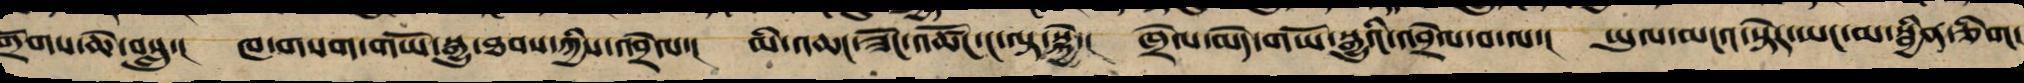གྲོགས་ཆེ་བསླུ་། ཁ་གསག་གཡོ་སྒྱུ་ཐབས་ཀྱིས་འབྲེལ་། མི་འཆང་ཟོང་འཚོང་ང་ལྟ་སྐྱེ་། ཁྲེལ་མེད་གཡོ་སྒྱུའི་འབྲེལ་བ་ལ་། ཡུལ་མངའ་སྟེར་ཡང་མ་སྦྱིན་ཅིག།
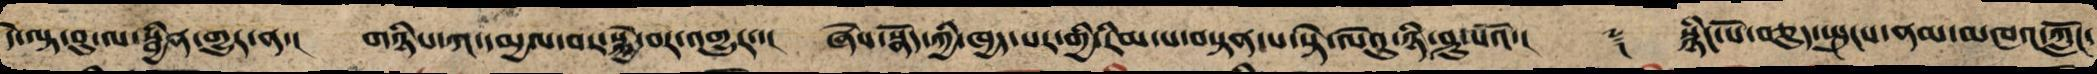དེ་ལྟ་བུ་ལ་བྱིན་གྱུར་ན་། གཉིས་ཀ་དམྱལ་བར་སྐྱེ་བར་འགྱུར་། ཞེས་སྣོད་ཀྱི་ཁྱད་པར་གྱི་རིམ་པ་བསྟན་པ་སྟེ་ལེའུ་ཉི་ཤུ་པའོ་།། ༈ སྙིང་པོ་བཅུད་སྤུངས་ནམ་མཁའ་ཀློང་
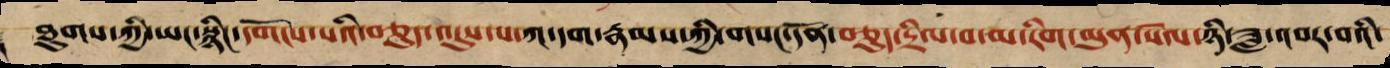ཐུགས་ཀྱི་ཡང་སྙིང་དགོངས་པའི་བཅུད་འདུས་པ་ཀ་དག་རྣམས་ཀྱི་གསང་དོན་བཅུད་དྲིལ་བ་མ་རིག་མུན་སེལ་ཉི་ཟླ་འབར་བའི་
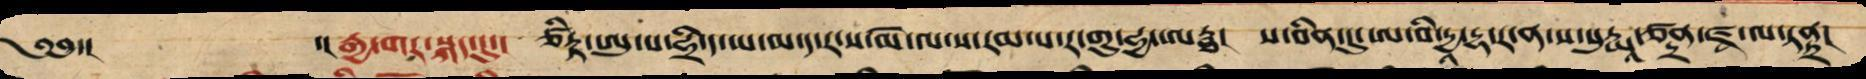༄༅་། ་།རྒྱ་གར་སྐད་དུ་། ཙིཏྟ་ཨུ་པ་ཧྲྀ་ད་ཡ་མ་ད་ར་ས་མེ་ལ་ས་རམ་པ་ར་་གུ་ཧྱ་ཨརྠ། ས་བིན་དུ་ཨ་བི་དྱཱ་དྷ་ར་ན་ས་སུརྱཱ་ཙནྡྲ་ཛྭ་ལ་ཏནྟྲ།
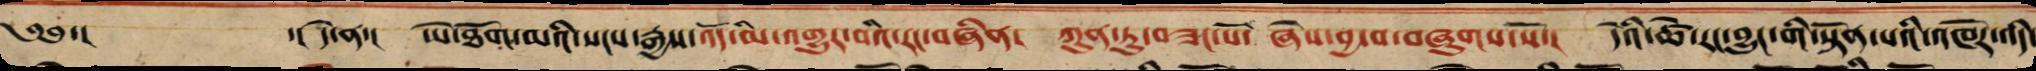༄༅་།   ་། དེ་ན་། ཡེ་ཐོག་མའི་སངས་རྒྱས་འོད་མི་འགྱུར་བའི་རང་བཞིན། ཀུན་ཏུ་བཟང་པོ་ཞེས་བྱ་བ་བཞུགས་སོ་། དེའི་ཚེ་རང་བྱུང་གི་སྟོན་པའི་འཁོར་འདི་
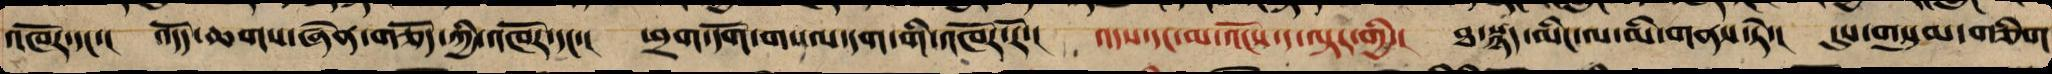འཁོར་དང་། འདོད་ཆགས་ཞེན་གཅོད་ཀྱི་འཁོར་དང་། ཕྲག་དོག་གསལ་དག་གི་འཁོར་རོ་། འདས་དང་མ་འོངས་ད་ལྟར་གྱིས་། ཐ་སྙད་མིང་ལ་མི་གནས་ཏེ་། དུས་གསུམ་གཅིག
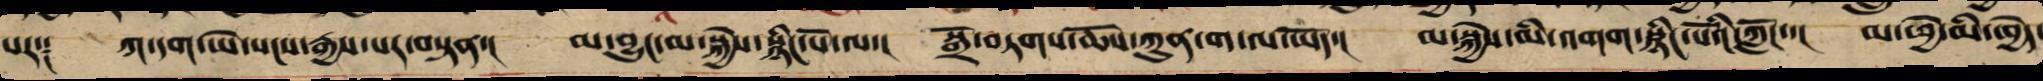པར༑ ཀ་དག་ཡེ་སངས་རྒྱས་པར་བསྟན་། མ་བྱུང་མ་སྐྱེས་སྙིང་པོ་ལ་། སྒྲོ་བཏགས་ཆོས་ཀུན་ག་ལ་ཡོད་། མ་སྐྱེས་མི་འགག་སྙིང་པོའི་ཀློང་་། མ་ཕྱེ་མི་ཕྱེད་
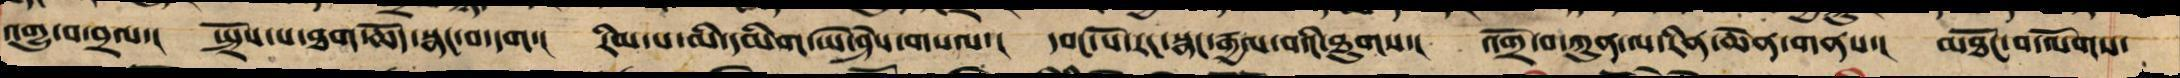འགྱུ་བ་བྲལ་། སྤྲོས་པ་ཐག་ཆོད་སྣང་བ་དག། རིམ་པ་མི་དམིགས་ཡེ་ཤེས་གསལ་། དབང་པོ་རང་སྣང་རྒྱལ་བའི་ཐུགས་། འགྲོ་བ་ཀུན་ལ་རང་བཞིན་གནས་། མཐོང་བ་ལོགས་
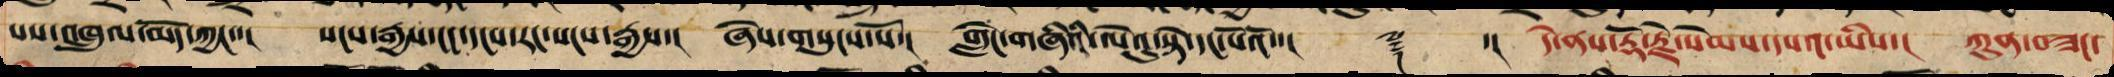པས་འཁྲུལ་མོད་ཀྱང་་། སངས་རྒྱས་ངང་དངས་རང་སངས་རྒྱས་། ཞེས་གསུངས་སོ་། གླེང་གཞིའི་ལེའུ་སྟེ་དང་པོའོ་།། ༈ ་།། དེ་ནས་རྡོ་རྗེ་སེམས་དཔའ་ཡིས་། ཀུན་བཟང་
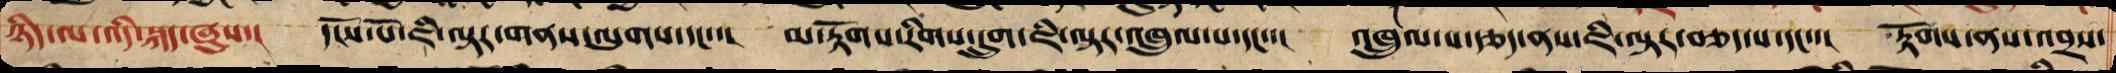ཉིད་ལ་འདི་སྐད་ཞུས་། དངོས་པོ་ཇི་ལྟར་གནས་ལུགས་དང་་། མ་རྟོགས་རིགས་དྲུག་ཇི་ལྟར་འཁྲུལ་པ་དང་་། འཁྲུལ་པ་རྩད་ནས་ཇི་ལྟར་གཅད་པ་དང་་། རྟོགས་ནས་འབྲས་
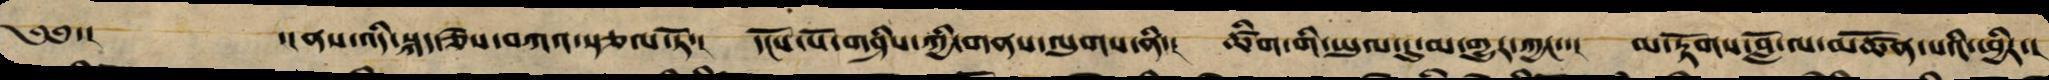༄༅་། ་།ནས་འདི་སྐད་ཅེས་བཀའ་སྩལ་ཏོ་། དངོས་པོ་གཤིས་ཀྱི་གནས་ལུགས་ནི་། ཚིག་གི་ཡུལ་དུ་མ་གྱུར་ཀྱང་་། མ་རྟོགས་བློ་ལ་མཚོན་པའི་ཕྱིར་།
